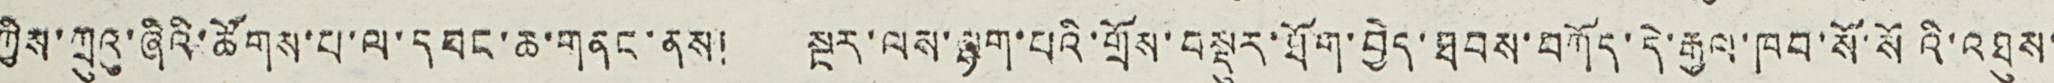ཀྱིས་ཀྲུའུ་ཞིའི་ཚོགས་པ་དབང་ཆ་གནང་ནས། སྔར་ལས་ལྷག་པའི་གྲོས་བསྡུར་ཐོག་བྱེད་ཐབས་བཀོད་དེ་རྒྱལ་ཁབ་སོ་སོའི་འཐུས་
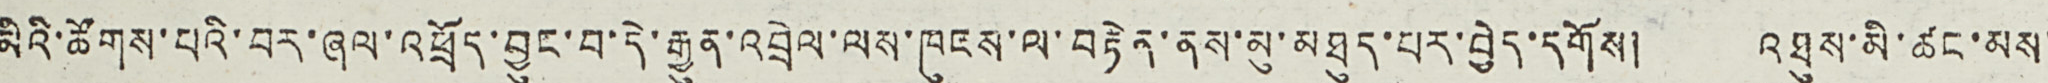མིའི་ཚོགས་པའི་བར་ཞལ་འཕྲོད་བྱུང་བ་དེ་རྒྱུན་འབྲེལ་ལས་ཁུངས་ལ་བརྟེན་ནས་མུ་མཐུད་པར་བྱེད་དགོས། འཐུས་མི་ཚང་མས་
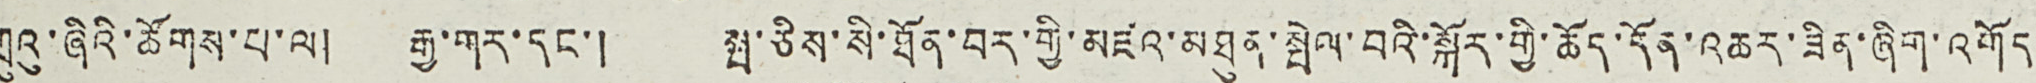ཀྲུའུ་ཞིའི་ཚོགས་པ་ལ། རྒྱ་གར་དང་། སྤ་ཅིས་སི་ཐོན་བར་གྱི་མཛའ་མཐུན་སྤེལ་བའི་སྐོར་གྱི་ཆོད་དོན་འཆར་ཟིན་ཞིག་འགོད་
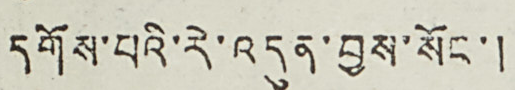དགོས་པའི་རེ་འདུན་བྱས་སོང་།
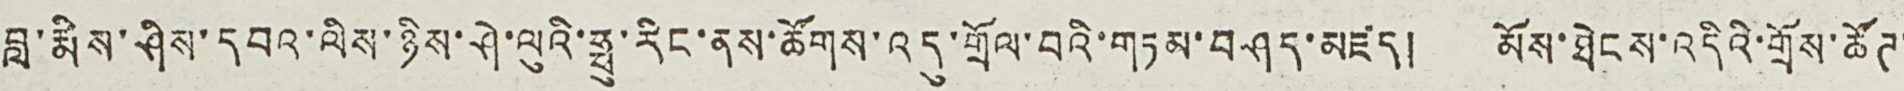བླ་རྨིས་ཤིས་དབའ་ལིས་ཉིས་ཤེ་ལུའི་ཧྥུ་རིང་ནས་ཚོགས་འདུ་གྲོལ་བའི་གཏམ་བཤད་མཛད། མོས་ཐེངས་འདིའི་གྲོས་ཚོཊ་
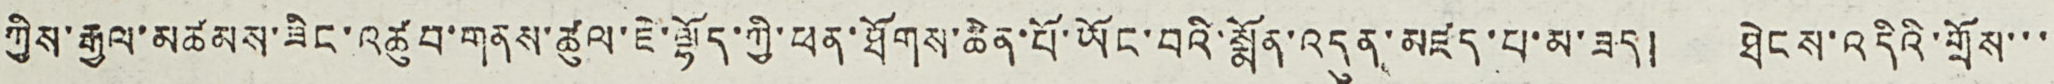ཀྱིས་རྒྱལ་མཚམས་ཟིང་འཚུབ་གནས་ཚུལ་ཇེ་ལྷོད་ཀྱི་ཕན་ཐོགས་ཆེན་པོ་ཡོང་བའི་སྨོན་འདུན་མཛད་པ་མ་ཟད། ཐེངས་འདིརི་གྲོས་་་་
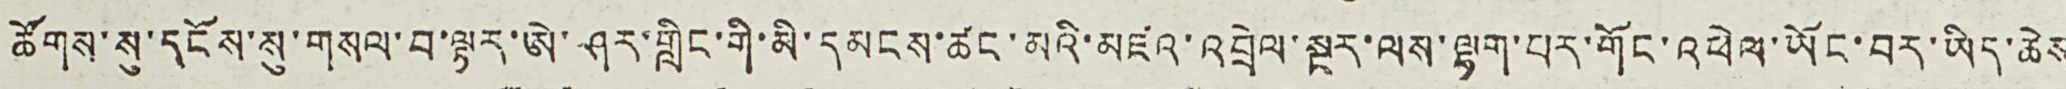ཚོགས་སུ་དངོས་སུ་གསལ་བ་ལྟར་ཨེ་ཤར་གླིང་གི་མི་དམངས་ཚང་མའི་མཛའ་འབྲེལ་སྔར་ལས་ལྷག་པར་གོང་འཕེལ་ཡོང་བར་ཡིད་ཆེས
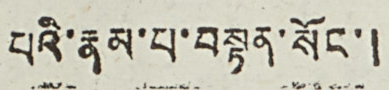པའི་རྣམ་པ་བསྟན་སོང་།
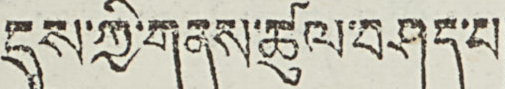དུས་ཀྱི་གནས་ཚུལ་བཤད་པ།
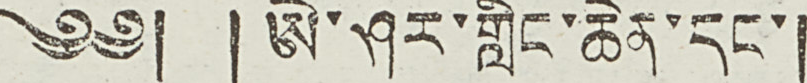༄༅། ། ཨེ་ཤར་གླིང་ཆེན་དང་།
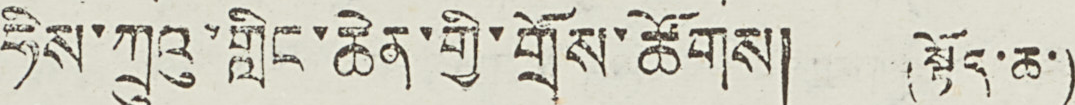ཧིས་ཀྲུའུ་གླིང་ཆེན་གྱི་གྲོས་ཚོགས། (སྟོད་ཆ་)
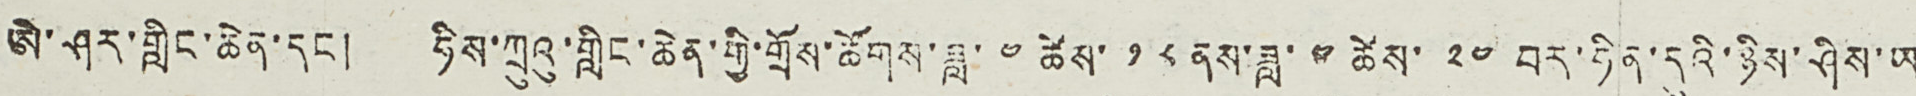ཨེ་ཤར་གླིང་ཆེན་དང ། ཧིས་ཀྲུའུ་གླིང་ཆེན་གྱི་གྲོས་ཚོགས་ཟླ་ ༤ ཚེས་ ༡༨ ནས་ཟླ་ ༤ ཚེས་ ༢༤ བར་ཧིན་དུའི་ཉིས་ཤིས་ཡ
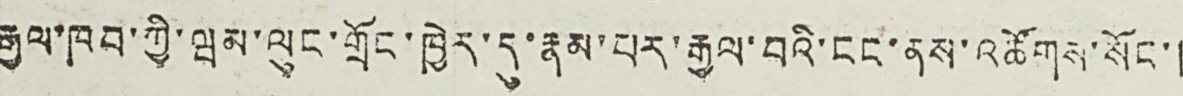རྒྱལ་ཁབ་ཀྱི་ཝམ་ལུང་གྲོང་ཁྱེར་དུ་རྣམ་པར་གྱལ་བའི་ངང་ནས་འཚོགས་སོང་།
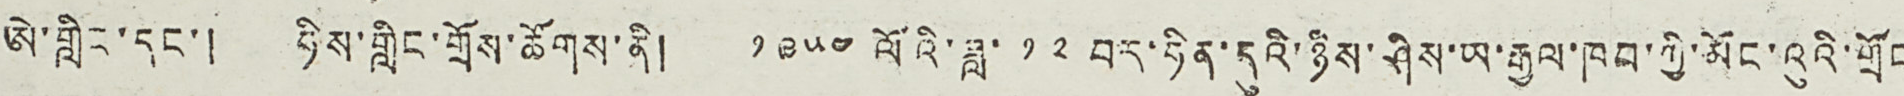ཨེ་གླིང་དང་། ཧིས་གླིང་གྲོས་ཚོགས་ནི། ༡༩༥༤ ལོའི་ཟླ་ ༡༢ བར་ཧིན་དུའི་ཉིས་ཤིས་ཡ་རྒྱལ་ཁབ་ཀྱི་མོང་འུའི་གྲོང་
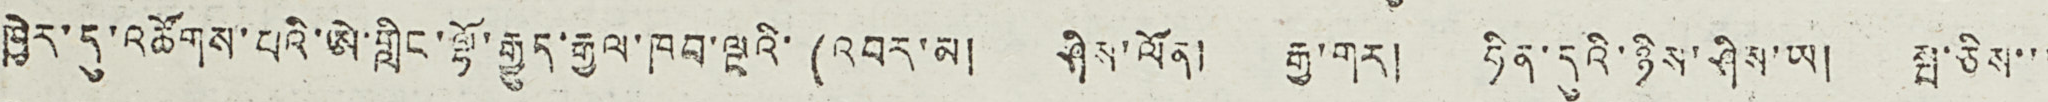ཁྱེར་དུ་འཚོགས་པའི་ཨེ་གླིང་ལྷོ་རྒྱུད་རྒྱལ་ཁབ་ལྔའི་ (འབར་མ། ཤིས་ལོན། རྒྱ་གར། ཧིན་དུའི་ཉིས་ཤིས་ཡ། སྤ་ཅིས་་་
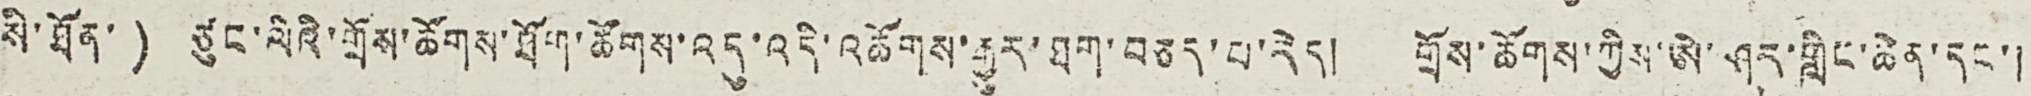སི་ཐོན་ ) ཙུང་ལིའི་གྲོས་ཚོགས་ཐོག་ཚོགས་འདུ་འདི་འཚོགས་རྒྱུར་ཐག་བཅད་པ་རེད། གྲོས་ཚོགས་ཀྱིས་ཨེ་ཤར་གླིང་ཆེན་དང་།
